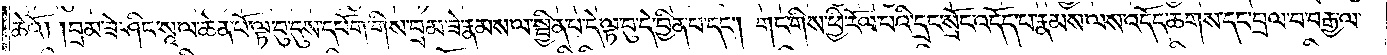ཆེའོ། །བྲམ་ཟེ་ཤིང་སཱ་ལ་ཆེན་པོ་ལྟ་བུ་དུས་དཔོག་གིས་བྲམ་ཟེ་རྣམས་ལ་སྦྱིན་པ་དེ་ལྟ་བུ་དེ་བྱིན་པ་དང༌། གང་གིས་ཕྱི་རོལ་པའི་དྲང་སྲོང་འདོད་པ་རྣམས་ལས་འདོད་ཆགས་དང་བྲལ་བ་བརྒྱ་ལ་
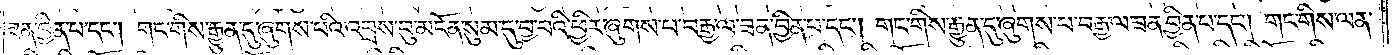ཟན་བྱིན་པ་དང༌། གང་གིས་རྒྱུན་དུ་ཞུགས་པའི་འབྲས་བུ་མངོན་སུམ་དུ་བྱ་བའི་ཕྱིར་ཞུགས་པ་བརྒྱ་ལ་ཟན་བྱིན་པ་དང༌། གང་གིས་རྒྱུན་དུ་ཞུགས་པ་བརྒྱ་ལ་ཟན་བྱིན་པ་དང༌། གང་གིས་ལན་
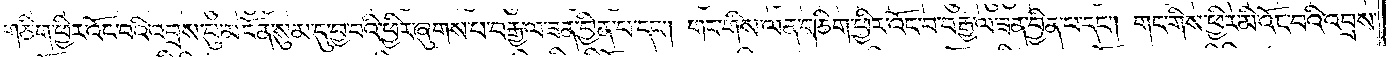གཅིག་ཕྱིར་འོང་བའི་འབྲས་བུ་མངོན་སུམ་དུ་བྱ་བའི་ཕྱིར་ཞུགས་པ་བརྒྱ་ལ་ཟན་བྱིན་པ་དང༌། གང་གིས་ལན་གཅིག་ཕྱིར་འོང་བ་བརྒྱ་ལ་ཟན་བྱིན་པ་དང༌། གང་གིས་ཕྱིར་མི་འོང་བའི་འབྲས་
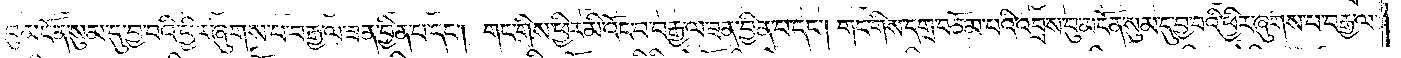བུ་མངོན་སུམ་དུ་བྱ་བའི་ཕྱིར་ཞུགས་པ་བརྒྱ་ལ་ཟན་བྱིན་པ་དང༌། གང་གིས་ཕྱིར་མི་འོང་བ་བརྒྱ་ལ་ཟན་བྱིན་པ་དང༌། གང་གིས་དགྲ་བཅོམ་པའི་འབྲས་བུ་མངོན་སུམ་དུ་བྱ་བའི་ཕྱིར་ཞུགས་པ་བརྒྱ་ལ་
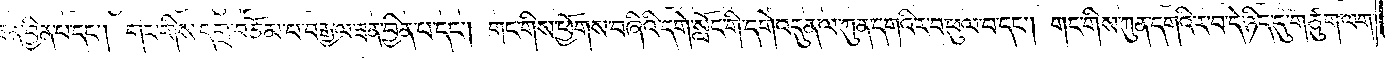ཟན་བྱིན་པ་དང༌། གང་གིས་དགྲ་བཅོམ་པ་བརྒྱ་ལ་ཟན་བྱིན་པ་དང༌། གང་གིས་ཕྱོགས་བཞིའི་དགེ་སློང་གི་དགེ་འདུན་ལ་ཀུན་དགའི་ར་བ་ཕུལ་བ་དང༌། གང་གིས་ཀུན་དགའི་ར་བ་དེ་ཉིད་དུ་གཙུག་ལག་
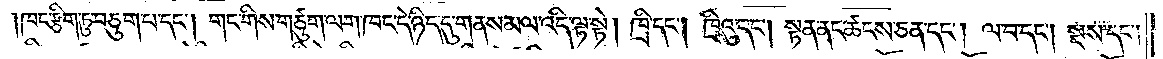ཁང་རྩིག་ཏུ་བཅུག་པ་དང༌། གང་གིས་གཙུག་ལག་ཁང་དེ་ཉིད་དུ་གནས་མལ་འདི་ལྟ་སྟེ། ཁྲི་དང༌། ཁྲིའུ་དང༌། སྟན་ནང་ཚངས་ཅན་དང༌། ལ་བ་དང༌། སྔས་དང༌།
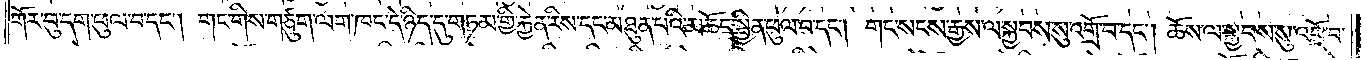གོར་བུ་དག་ཕུལ་བ་དང༌། གང་གིས་གཙུག་ལག་ཁང་དེ་ཉིད་དུ་གཏམ་གྱི་རྐྱེན་རིས་དང་མཐུན་པའི་མཆོད་སྦྱིན་ཕུལ་བ་དང༌། གང་སངས་རྒྱས་ལ་སྐྱབས་སུ་འགྲོ་བ་དང༌། ཆོས་ལ་སྐྱབས་སུ་འགྲོ་བ་
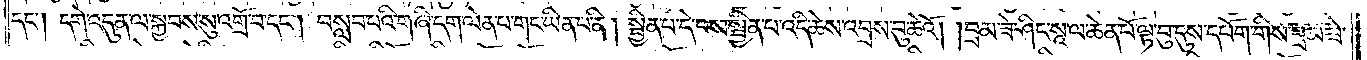དང༌། དགེ་འདུན་ལ་སྐྱབས་སུ་འགྲོ་བ་དང༌། བསླབ་པའི་གཞི་དག་ལེན་པ་གང་ཡིན་པ་ནི། སྦྱིན་པ་དེ་བས་སྦྱིན་པ་འདི་ཆེས་འབྲས་བུ་ཆེའོ། །བྲམ་ཟེ་ཤིང་སཱ་ལ་ཆེན་པོ་ལྟ་བུ་དུས་དཔོག་གིས་བྲམ་ཟེ་
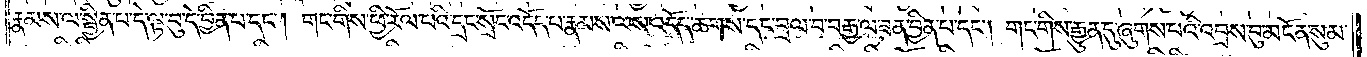རྣམས་ལ་སྦྱིན་པ་དེ་ལྟ་བུ་དེ་བྱིན་པ་དང༌། གང་གིས་ཕྱི་རོལ་པའི་དྲང་སྲོང་འདོད་པ་རྣམས་ལས་འདོད་ཆགས་དང་བྲལ་བ་བརྒྱ་ལ་ཟན་བྱིན་པ་དང༌། གང་གིས་རྒྱུན་དུ་ཞུགས་པའི་འབྲས་བུ་མངོན་སུམ་
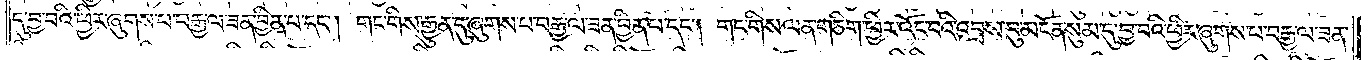དུ་བྱ་བའི་ཕྱིར་ཞུགས་པ་བརྒྱ་ལ་ཟན་བྱིན་པ་དང༌། གང་གིས་རྒྱུན་དུ་ཞུགས་པ་བརྒྱ་ལ་ཟན་བྱིན་པ་དང༌། གང་གིས་ལན་གཅིག་ཕྱིར་འོང་བའི་འབྲས་བུ་མངོན་སུམ་དུ་བྱ་བའི་ཕྱིར་ཞུགས་པ་བརྒྱ་ལ་ཟན་
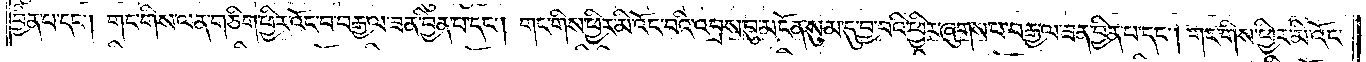བྱིན་པ་དང༌། གང་གིས་ལན་གཅིག་ཕྱིར་འོང་བ་བརྒྱ་ལ་ཟན་བྱིན་པ་དང༌། གང་གིས་ཕྱིར་མི་འོང་བའི་འབྲས་བུ་མངོན་སུམ་དུ་བྱ་བའི་ཕྱིར་ཞུགས་པ་བརྒྱ་ལ་ཟན་བྱིན་པ་དང༌། གང་གིས་ཕྱིར་མི་འོང་
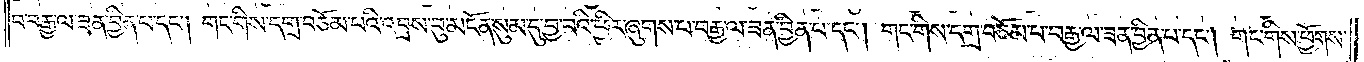བ་བརྒྱ་ལ་ཟན་བྱིན་པ་དང༌། གང་གིས་དགྲ་བཅོམ་པའི་འབྲས་བུ་མངོན་སུམ་དུ་བྱ་བའི་ཕྱིར་ཞུགས་པ་བརྒྱ་ལ་ཟན་བྱིན་པ་དང༌། གང་གིས་དགྲ་བཅོམ་པ་བརྒྱ་ལ་ཟན་བྱིན་པ་དང༌། གང་གིས་ཕྱོགས་
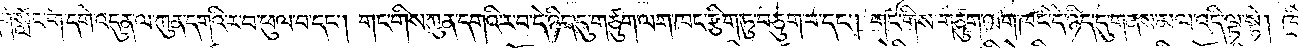དགེ་སློང་གི་དགེ་འདུན་ལ་ཀུན་དགའི་ར་བ་ཕུལ་བ་དང༌། གང་གིས་ཀུན་དགའི་ར་བ་དེ་ཉིད་དུ་གཙུག་ལག་ཁང་རྩིག་ཏུ་བཅུག་པ་དང༌། གང་གིས་གཙུག་ལག་ཁང་དེ་ཉིད་དུ་གནས་མལ་འདི་ལྟ་སྟེ། ཁྲི་
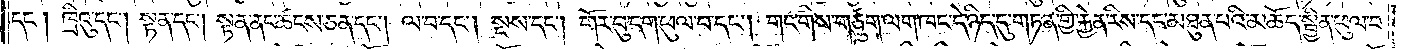དང༌། ཁྲིའུ་དང༌། སྟན་དང༌། སྟན་ནང་ཚངས་ཅན་དང༌། ལ་བ་དང༌། སྔས་དང༌། གོར་བུ་དག་ཕུལ་བ་དང༌། གང་གིས་གཙུག་ལག་ཁང་དེ་ཉིད་དུ་གཏན་གྱི་རྐྱེན་རིས་དང་མཐུན་པའི་མཆོད་སྦྱིན་ཕུལ་བ་
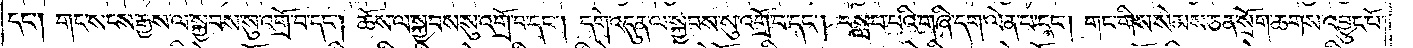དང༌། གང་སངས་རྒྱས་ལ་སྐྱབས་སུ་འགྲོ་བ་དང༌། ཆོས་ལ་སྐྱབས་སུ་འགྲོ་བ་དང༌། དགེ་འདུན་ལ་སྐྱབས་སུ་འགྲོ་བ་དང༌། བསླབ་པའི་གཞི་དག་ལེན་པ་དང༌། གང་གིས་སེམས་ཅན་སྲོག་ཆགས་འབྱུང་པོ་
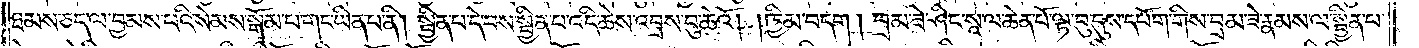ཐམས་ཅད་ལ་བྱམས་པའི་སེམས་སྒོམ་པ་གང་ཡིན་པ་ནི། སྦྱིན་པ་དེ་བས་སྦྱིན་པ་འདི་ཆེས་འབྲས་བུ་ཆེའོ། །ཁྱིམ་བདག། །བྲམ་ཟེ་ཤིང་སཱ་ལ་ཆེན་པོ་ལྟ་བུ་དུས་དཔོག་གིས་བྲམ་ཟེ་རྣམས་ལ་སྦྱིན་པ་
